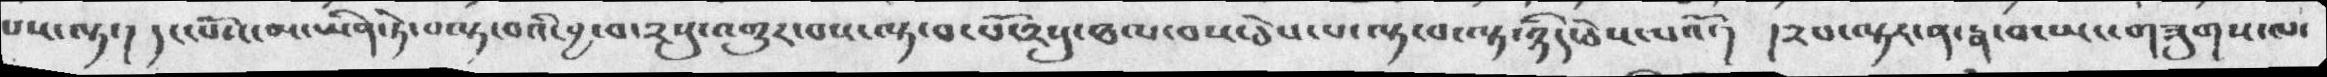པས་ལྟ་། དང་པོ་མ་ཡིན་ཏེ་བལྟ་བའི་བྱ་བ་༢སུ་འགྱུར་བས་ལྟ་བ་པོ་༢སུ་ཐལ་བས་ཅེས་པ་ལྟ་བ་ལྟ་ཉིད་ཅེས་པའོ་། །༢པ་ལྟར་ན་རྣ་བ་ཡང་གཟུགས་ལ་
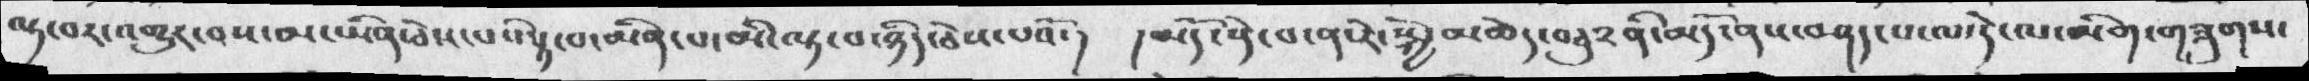ལྟ་བར་འགྱུར་བས་མ་ཡིན་ཅེས་པའི་ལྟ་བ་མིན་པ་མི་ལྟ་བ་ཉིད་ཅེས་པའོ་།  །མདོ་སྡེ་པ་ན་རེ་སྐྱེ་མཆེད་བཅུ༢ནི་མདོ་ནས་བཤད་པ་ལ་དེ་ལ་མིག་གཟུགས་
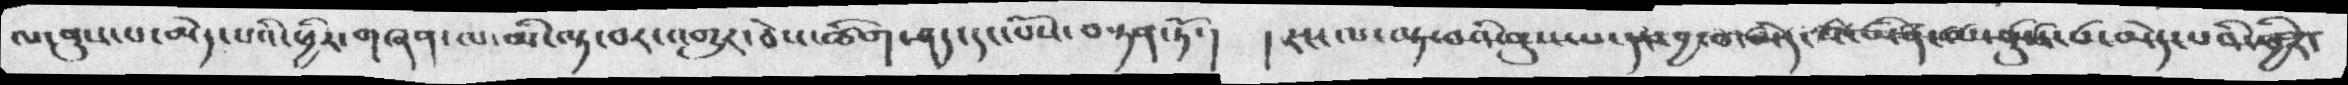ལ་ནུས་པ་མེད་པའི་ཕྱིར་གཞན་ལ་མི་ལྟ་བར་འགྱུར་ཅེས་ཚིག་ཤད་དང་པོས་བསྟན་ཏོ་།  ། རང་ལ་ལྟ་བའི་ནུས་པ་དང་བྱ་བ་མེད་པ་ཡིན་ལ་ནུས་པ་མེད་པའི་ཕྱིར་
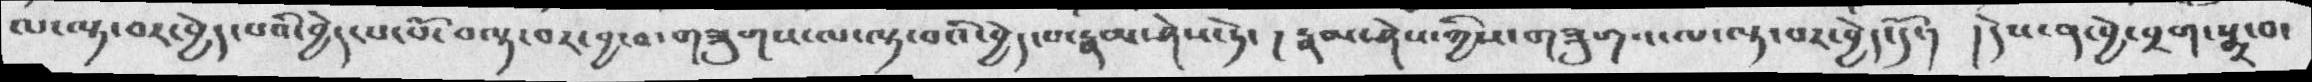ལ་ལྟ་བར་བྱེད་པའི་བྱེད་པ་པོ་བལྟ་བར་བྱ་བ་གཟུགས་ལ་ལྟ་བའི་བྱེད་པ་རྣམ་ཤེས་ཏེ་ ། རྣམ་ཤེས་ཀྱིས་གཟུགས་ལ་ལྟ་བར་བྱེད་དོ་།  ། དེས་ན་བྱེ་བྲག་སྨྲ་བ་
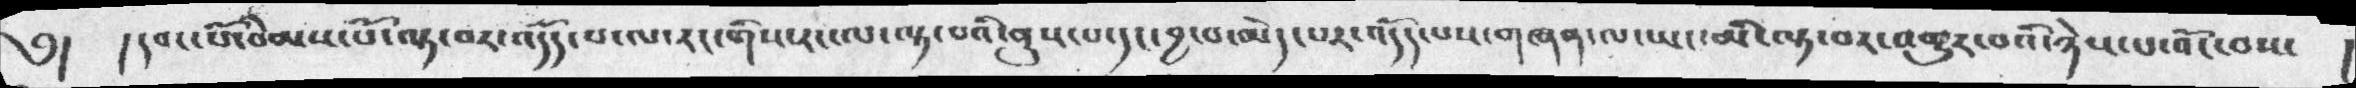༅།  །དབང་པོ་བེམས་པོ་ལྟ་བར་འདོད་པ་ལ་རང་གིས་རང་ལ་ལྟ་བའི་ནུས་པ་དང་བྱ་བ་མེད་པར་འདོད་པས་གཞན་ལ་ཡང་མི་ལྟ་བར་འགྱུར་བའི་ཉེས་པ་འོང་བས་   །
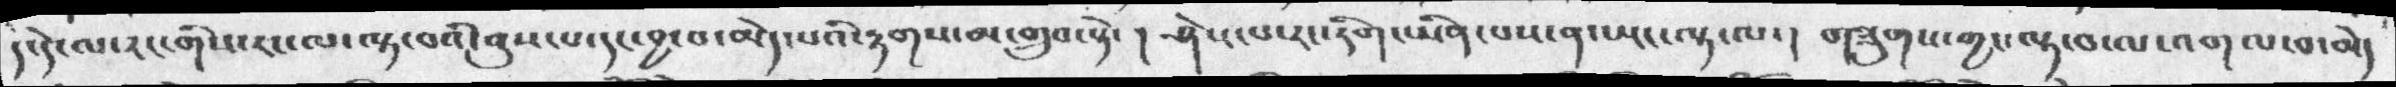ད་དེ་ལ་རང་གིས་རང་ལ་ལྟ་བའི་ནུས་པ་དང་བྱ་བ་མེད་པའི་རྟགས་མ་གྲུབ་སྟེ་ ། ཤེས་པ་རང་རིག་ཡིན་པས་ན་ཡང་ལྟ་ལ་། གཟུགས་ཀྱང་ལྟ་བ་ལ་འགལ་བ་མེད
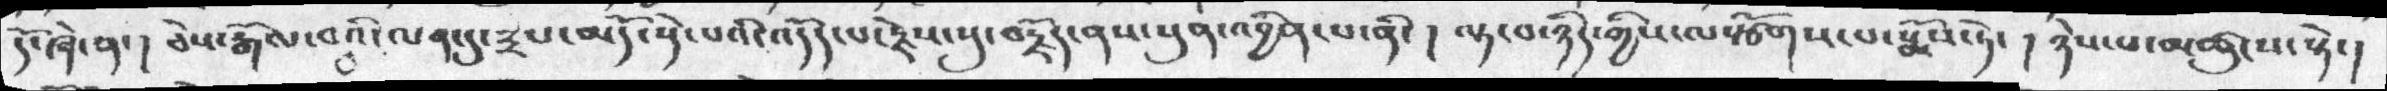དོ་ཞེ་ན་།  ཅེས་རྒོལ་བའི་ལན་དུ་༣པ་མདོ་སྡེ་པའི་འདོད་པ་རྗེས་སུ་བརྗོད་ནས་སུན་འབྱིན་པ་ནི་།  ལྟ་བ་ཉིད་གྱིས་ལསྩོགས་པ་སྨོས་ཏེ་། ཉེས་པ་མཚུངས་སྟེ་།
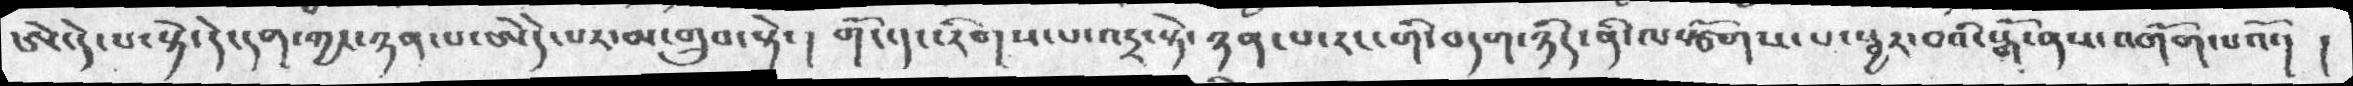ཨེ་དེ་པ་སྟེ་དེ་དག་ཀྱང་ཉན་པ་ཨེདེ་པར་མ་གྲུབ་སྟེ་།  གོང་དང་རིགས་པ་འདྲ་སྟེ་ཉན་པ་རང་གི་བདག་ཉིད་ནི་ལསྩོགས་པ་སྦྱར་བའི་སྒོ་ནས་འགོག་པའོ་། །
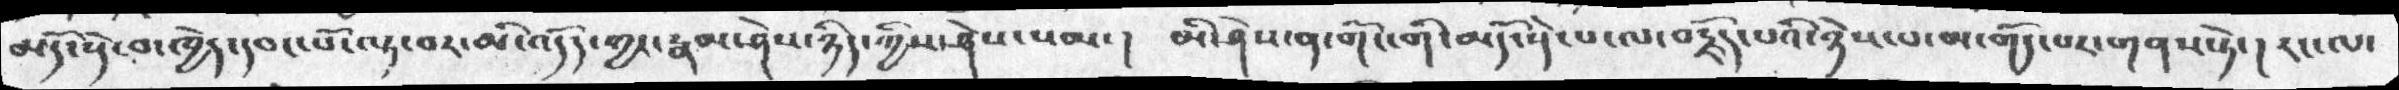མདོ་སྡེ་བ་ཁྱེད་དབང་པོ་ལྟ་བར་མི་འདོད་ཀྱང་རྣམ་ཤེས་ཉིད་ཀྱིས་ཤེས་སམ་།  མི་ཤེས་ན་གོང་གི་མདོ་སྡེ་པ་ལ་བརྗོད་པའི་ཉེས་པ་མ་གོད་པར་གནས་ཏེ་། རང་ལ་
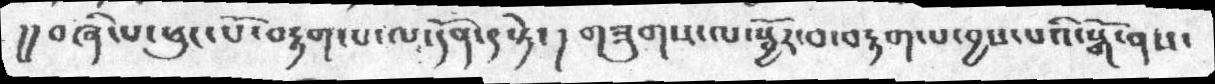།།བཞི་པ་ཕུང་པོ་བརྟག་པ་ལ་དོན་༡སྟེ་། གཟུགས་ལ་སྦྱོར་བ་བརྟག་པ་བྱས་པའི་སྒོ་ནས་
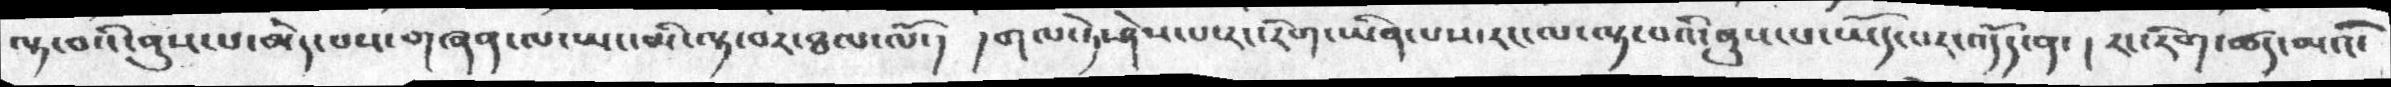ལྟ་བའི་ནུས་པ་མེད་པས་གཞན་ལ་ཡང་མི་ལྟ་བར་ཐལ་ལོ་།  །གལ་ཏེ་ཤེས་པ་རང་རིག་ཡིན་པས་རང་ལ་ལྟ་བའི་ནུས་པ་ཡོད་པར་འདོད་ན་། རང་རིག་ཚད་མའོ་
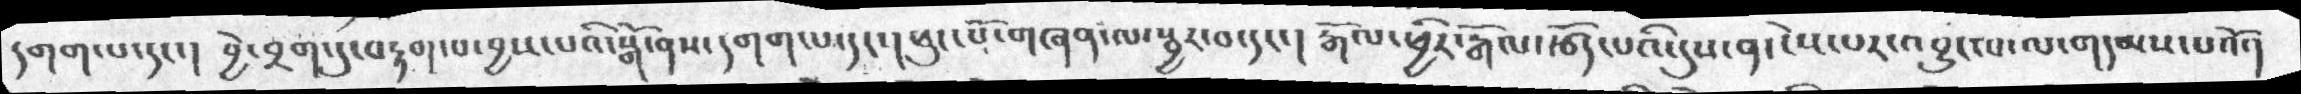དགག་པ་དང་། བྱེ་བྲག་དུ་བརྟག་པ་བྱས་པའི་སྒོ་ནས་དགག་པ་དང་ཕུང་པོ་གཞན་ལ་སྦྱར་བ་དང་།  རྒོལ་ཕྱིར་རྒོལ་རྩོད་པའི་དུས་ན་ངེས་པར་འབྱུང་པ་ལ་གདམས་པའོ་།
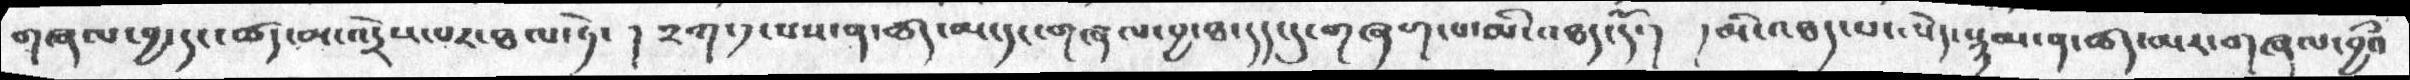གཞལ་བྱ་དང་ཚད་མ་འདྲེས་པར་ཐལ་ཏེ་ ། ༢ཀ་༡་པས་ན་ཚད་མ་དང་གཞལ་བྱ་ཐ་དད་དུ་གཞག་པ་མི་འཐད་དོ་།  །མི་འཐད་པ་མེད་སྙམ་ན་ཚད་མར་གཞལ་བྱའི
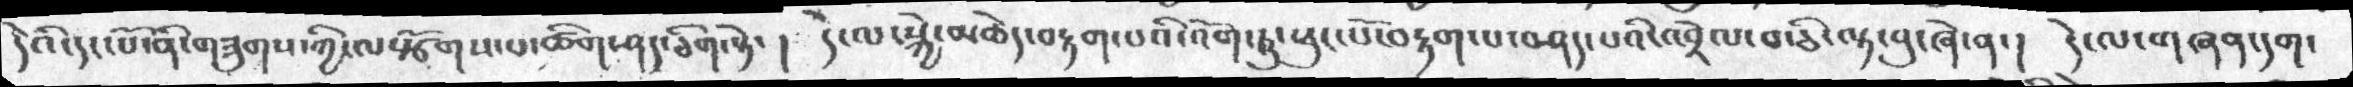དེའི་དང་པོ་ནི་གཟུགས་ཀྱི་ལསྩོགས་པ་ཚིག་ཤད་ཅིག་སྟེ་།  དེ་ལ་སྐྱེ་མཆེད་བརྟག་པའི་འོག་ཏུ་ཕུང་པོ་བརྟག་པ་བཤད་པའི་འབྲེལ་བ་ཅི་ལྟ་བུ་ཞེ་ན་།  དེ་ལ་གཞན་དག་
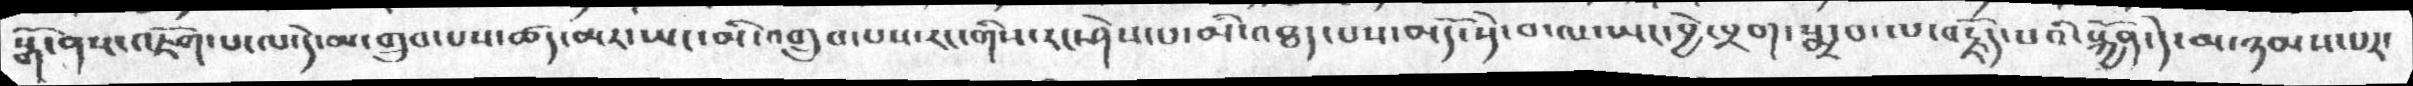སྒོ་ནས་འཇོག་པ་ལ་དེ་མ་གྲུབ་པས་ཚད་མར་ཡང་མི་གྲུབ་པས་རང་ཤེས་པ་མི་འཐད་པས་མདོ་སྡེ་བ་ལ་ཡང་བྱེ་བྲག་སྨྲ་བ་ལ་བརྗོད་པའི་སྐྱོན་དེ་མ་ཉམས་པར་
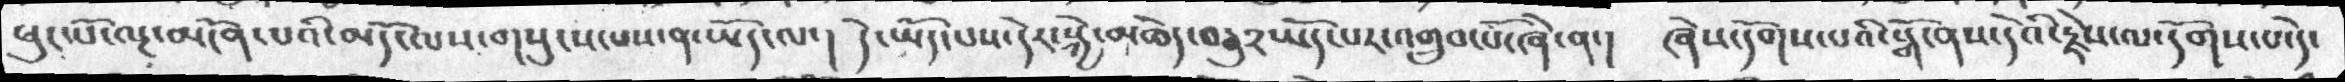ཕུང་པོ་ལྔ་མངོན་པའི་མདོ་ལས་གསུངས་པས་ན་ཡོད་ལ་།  དེ་ཡོད་པས་དེར་སྐྱེ་མཆེད་བཅུར་ཡོད་པར་འགྲུབ་པོ་ཞེ་ན་།  ཞེས་དགོས་པའི་སྒོ་ནས་དེའི་རྗེས་ལ་དོགས་པ་དེ་
